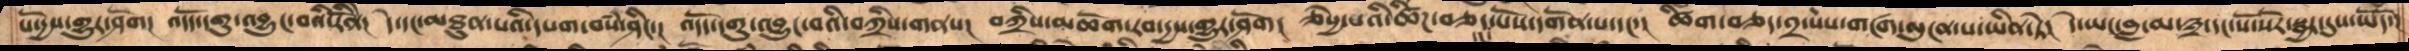པོ་དྱས་གྱུར་ཤོག འདོད་དགུ་འབྱུང་བའི་རིནོེ་། དེ་དང་མཐུན་པའི་དཔག་བསཾ་ཤིང་། འོདད་དགུ་འབྱུང་བའི་བཀྲིས་གནས། བཀྲིས་མཆོག་རབ་དྱས་གྱུར་ཤོག།  ཅེསྱ་་པའི་ཚིཌ་བཅད་དང་པོས་དགོན་པ་དང་། ཚིག་བཅད་༢་པས་གངཟག་ལུངན་པ་ཡིན་ཏེ། དེ་ཡང་བླ་མ་༣་དང་སོ་སོར་སྦྱར་དུས་ཡོདོ་།
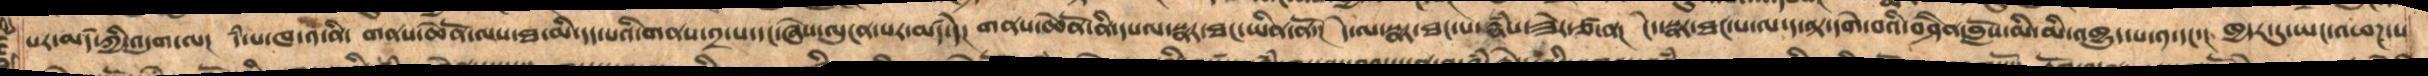པར་མཛད་ཀྱི་འདུག་ལ། དཾ་པ་ཁ་༡་ནི་ གནས་ཆེནོ་ལས་ཐ་མི་དད་པའི་གནས་༢་པ་དང་ཞེས་པས་ལུངན་པར་མཛད་དེ། གནས་ཆེནོ་ནི་དཔལ་སྣར་ཐང་ཡིན་ནོ། དེ་ལ་སྣར་ཐང་པ་རྣཾས་ཟེར་ཙ་ན། ངེད་སྣར་ཐང་པ་ལ་ད་ལྟ་དགེ་བའི་བཤཻན་བློས་མི་མི་འཁྱུད་པ་༡་དང་། ཁྱདར་དུ་ཡང་འཕཌ་པ་
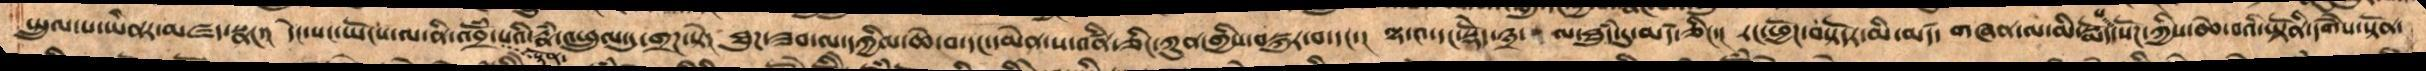སྤྲུལ་པ་ཡིནར་མཛད་སྣང་། དེང་སང་ཡོངས་ལ་ནི་འབྲོཾ་སྟོན་པའི་རྣཾ་འཕྲུལ་དུ་གྲཌ་སྟེ། ཐུཌ་ཟབ་ལ་དཀྱིལ་ཆེ་བ་དང་དམེན་ས་འཛིན་ཅིང་ཀུན་གྱིས་བསྐུར་བ་དང་། ལྷ་༤་དང་སྡེདོ་༣་ལ་ཐུཾད་དུ་མཛད་ཅིང་། རང་ཕྱོཌ་བསྟོདར་མི་མཛད།  གཞན་ལ་མི་སྨོད་པ་སོཌ་ཀྱིས་ཆེ་བའི་ཡྟོནི་དགཻས་སྟོན་
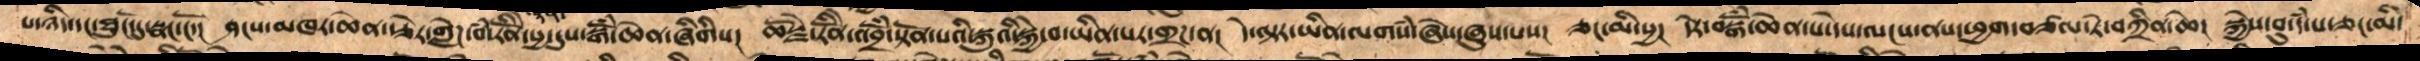པ་ཉིད་དང་ཐོུང་དུ་སྣང་ངོ་།  ཤངས་མཁར་ཆེན་རྩེར་གླེཌ་བཾ་རིནོེ་སྱ་དུས་སྒོཾ་ཆེན་ཞིགིས།  ཆོསྗེ་རིནོེ་འབྲོཾ་སྟོན་པའི་སྐུའི་སྐྱེ་བ་ཡིན་པར་གྲཌ་ན།  དེ་ལྟར་ཡིན་ལགསཾ་ཞེས་ཞུས་པས།  ཅང་མི་སྱ།  དེར་སྒོཾ་ཆེན་པ་དེས་ལངས་ནས་ཕྱག་བཙལ་ཏེ་བཀྲིན་ཆེ།  སྐྱེས་བུ་དཾ་པ་ཅང་མི་
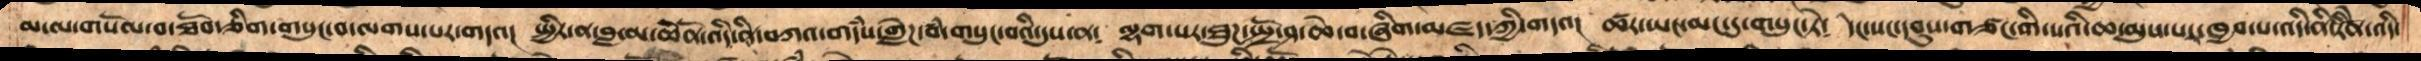མ་ལ་གསོལ་བ་ཐོབ་ཅིག་གསུང་བ་ལགས་པར་གདའ།  སྤྱིར་ན་བླ་མ་ཆེནོ་འདི་ནི་བཀའ་གདཾས་གླེཌ་བཾ་གསུང་བའི་དུས་ན༴  ལྷག་པར་ཐུཌ་སྤྲོ་ཤ་ཆེ་བ་ཞིག་མཛད་ཀྱི་གདའ།  ཚར་ཡང་མང་དུ་གསུང་ཏེ༴  དེང་སང་དབུས་གཙང་གི་སའི་ཆ་མུས་པར་ཁྱབ་པ་འདི་ནི་རིནོེ་འདི་
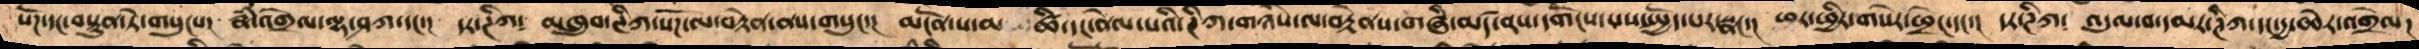སོཌ་དང་བསྟུན་ཏེ་གསུངས།  རྣཾ་འགྲེལ་ལྷ་ཤཀ་དང་།  དར་ཊིཀ༴ མཁྲུབ་ཊིཀ་སོཌ་ལ་བརྟེན་ནས་གསུང་།  མངོན་པ་མ ཚི་དང་ནེལ་པའི་ཊིཀ་གཉིས་ལ་བརྟེནས་གཞི་མཛད་ནས་དགོངས་པས་སྤྱོད་པར་སྣང་།  ཕར་ཕྱིན་གསེར་ཕྲེང་དང་།  དར་ཊིཀ༴  འདུལ་བ་དམར་ཊིཀ་དང་དྱ་ཆེར་འགྲེལ།
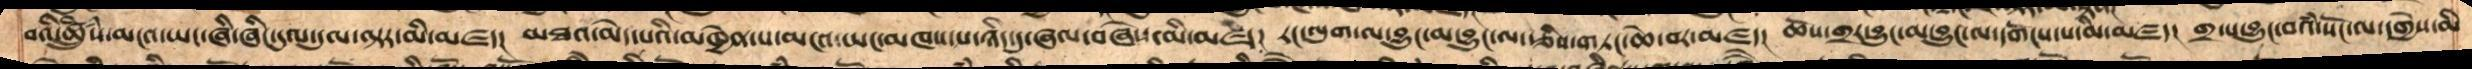བའི་ཚྲིུཾས་མངའ་ཡང་ཞི་ཞིང་དུལ་དུལ་ལྟར་མི་མཛད།  མཐའ་མེད་པའི་མཁྱེན་པ་མངའ་ཡང་མཁས་པ་ཉིད་དུ་ཞལ་བཞེས་མི་མཛད།  རང་ལུག་ལ་བྱུང་མ་བྱུང་ཅིས་གཏང་ཆེ་བར་མཛད།  ཆོས་གྲར་བྱུང་མ་བྱུང་ལ་དགོངས་པ་མི་མཛད།  གྲ་པ་བྱུང་བའཾ་སོང་ལ་དགྱེས་མི་
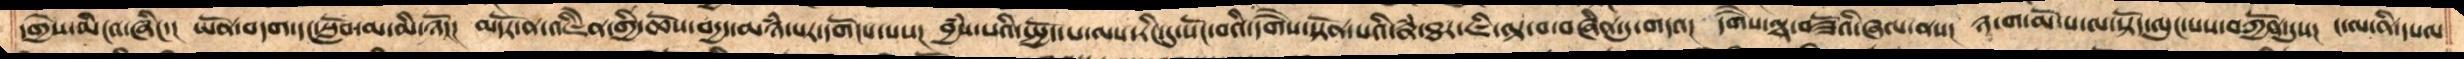དགྱེས་མིངའ་ཞིང་།  ཡོན་བདག་དང་སློབ་མ་མི་ཉོད།  མདོར་ན་འཇིེན་གྱི་ཆོས་བདྱད་མཉཾ་པར་དགོངས་པས།  བྱཾས་པའི་སྤྱོད་པ་ལས་རིང་དུ་སོང་བའི་དགཻས་སྟོན་པའི་རྣཾ་ཐར་ཇི་ལྟ་བ་བཞིན་དུ་གདའ།  དགཻས་ལྷ་བཟོའི་ཞལ་ནས།  ཉ་ག་མོ་པ་ལ་སྟོད་ལུང་པས་བཀྱོན་དུས།  ང་ལ་ནི་དཔལ་
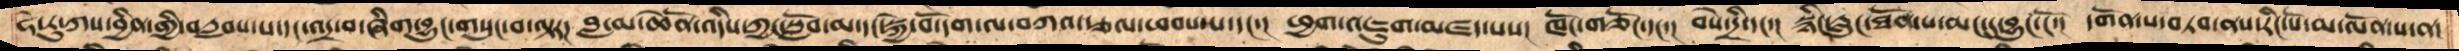ཧེ་རུ་ཀས་བྱིན་གྱི་བརླབས་པ་དང་འདྲ་བ་ཞིག་བྱུང་གསུང་བ་ལྟར།  བླ་མ་ཆེནོ་འདིས་ཀྱང་སློབ་མ་དང་སྐྱེ་བོ་དག་ལ་བཀའ་རྩལ་ཕབས་པ་དང་།  ཕྱག་འཇུག་མཛད་པས།  ཁོང་གཅོང་དང་།  བསེ་དྲི་དང་།  སྙིང་རླུང་ཐོན་པ་མང་དུ་བྱུང་ངོ་།  དགོན་པ་བཏབ་ནས་རིང་པོ་མ་ལོན་པ་ན།
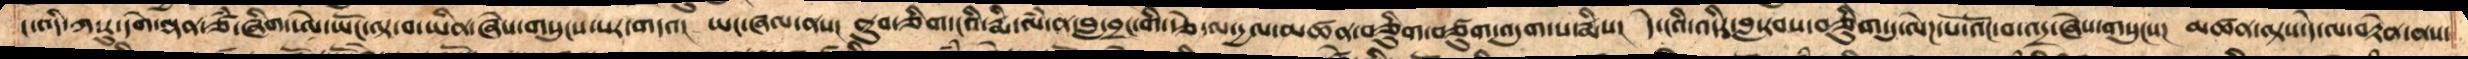ང་འདི་ཀ་རུ་དགེ་ལྡན་ཙཾ་ཞིག་ཨེ་ཡོང་ལྟ་བ་ཡིན་ཞེས་གསུངས་པར་གདའ།  ཡང་ཞལ་ནས།  ནུབ་ཅིག་ངའི་རྨི་ལཾ་ན་བླ་བྲང་གི་རྩེ་ལ་དྱལ་མཚན་བཅིུག་བཙུག་འདུག་པ་རྨིས།  དེ་ངའི་འདིར་བླ་རབས་བཅིུག་དུ་ལེཌ་པོ་འོང་བ་འདྲ་ཞེས་གསུངས།  མཚན་ལྟས་དེ་ལ་བརྟེན་ནས་
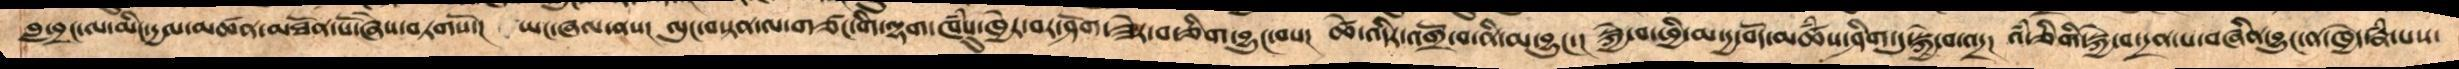བླ་བྲང་ལ་མིང་དྱལ་མཚན་མཐོན་པོ་ཞེས་བཏགསོ།  ཡང་ཞལ་ནས།  ལུང་བསྟན་ལ་གཙང་གི་ལྷག་ཁཾསུ་ཁྱེར་བར་ཤོག་ཟེར་བ་ཅིག་བྱུང་བས།  ཚེ་འདིར་འགྲོ་བ་ནི་མ་བྱུང་།  སྐྱེ་བ་ཕྱི་མ་དྱ་བོད་མཚཾས་ཤིག་དུ་སྐྱེ་བ་འདྲ།  འཾ་ཅིགི་སྐྱེ་བ་དྲན་པ་བཞིན་བྱུང་ན་ཁྱེད་རྣཾ་པས་
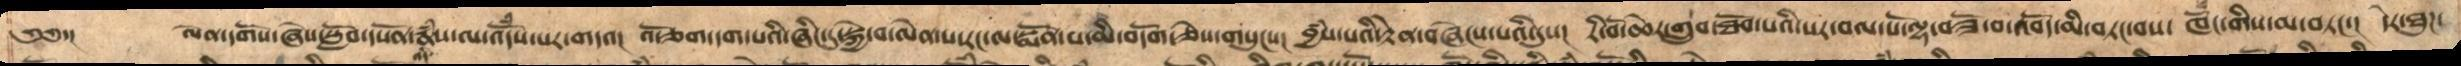༄༅་།  ལེན་དགོས་ཞེས་སློབ་དཔོན་རྣཾས་ལ་འདོཾས་པར་གདའ།  འོ་ཅག་དག་པའི་ཞིང་དུ་སྐྱེ་བ་ལེན་པ་རང་ལ་སྨོན་པ་མི་བདོག་ཅེས་གསུངས། བྱཾས་པའི་རྟེན་བཞེངས་པའི་དུས།  རི་བོ་ཆེར་གྲུབ་ཐོབ་པའི་སར་བལ་པོ་ལྷ་བཟོ་བ་འབོད་མི་བཏང་བས།  ཁོང་གིས་མ་བཏང་།  དེར་ཐུཌ་
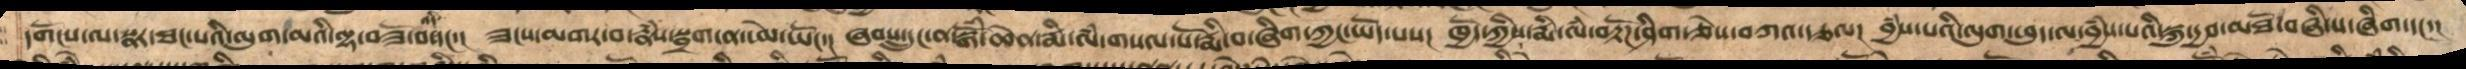དགོངས་ལ་སྣར་ཐང་པའི་ལུག་མའི་ལྷ་བཟོ་བ་འདི་དང་། ཟངས་མགར་བ་རྣཾས་སྦྲག་ན་མེ་ཡོང་།  ཞབས་དྲུང་ན་སྒོཾ་ཆེན་རྨི་ལཾ་གསལ་པོ་རྨི་བ་ཞིག་ཀྱང་ཡོད་པས།  ཁྱེད་ཀྱིས་རྨི་ལཾ་བརྟོཌ་ཤིག་ཅེས་བཀའ་རྩལ།  བྱཾས་པའི་ལུག་ཕུད་ལ་བྱཾས་པའི་སྐུ་དྱབ་མཐོ་བཞི་པ་ཞིག་དང་།
